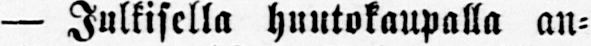— Julkisella huutokaupalla an-
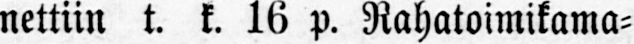nettiin t. k. 16 p. Rahatoimikama-
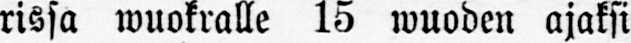rissa wuokralle 15 wuoden ajaksi
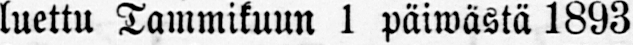luettu Tammikuun 1 päiwästä 1893
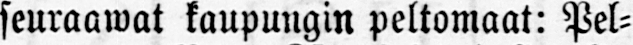seuraawat kaupungin peltomaat: Pel-
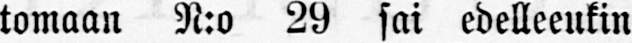tomaan N:o 29 sai edelleeukin
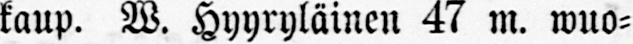kaup. W. Hyyryläinen 47 m. wuo-
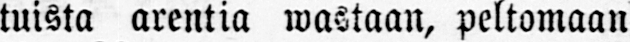tuista arentia wastaan, peltomaan
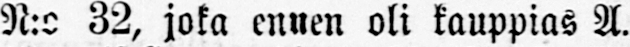N:o 32, joka ennen oli kauppias A.
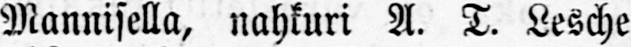Mannisella, nahkuri A. T. Lesche
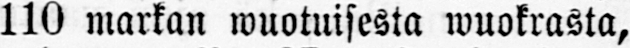110 markan wuotuisesta wuokrasta,
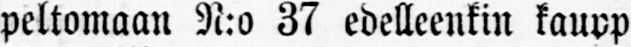peltomaan N:o 37 edelleenkin kaupp
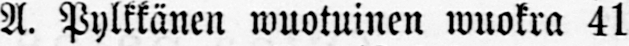A. Pylkkänen wuotuinen wuokra 41
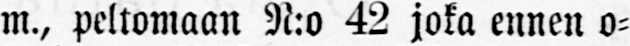m., peltomaan N:o 42 joka ennen o-
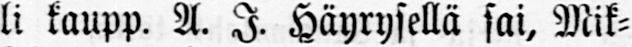li kaupp. A. I. Häyrysellä sai, Mik-
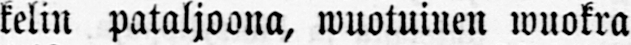kelin pataljoona, wuotuinen wuokra
